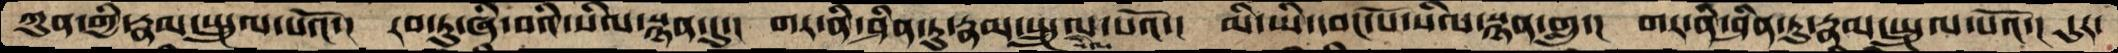ཀུནགྱི་རྣམ་སྤྲུལ་པའོ་། རབ་ཏུ་ཞི་བའི་སིལ་སྙན་དུ་། གར་ནི་ཤིན་ཏུ་རྣམ་སྤྲུལ་པའོ་། མི་ཡི་དབང་པོ་སིལ་སྙན་གླུ་། གར་ནི་ཤིན་ཏུ་རྣམ་སྤྲུལ་པའོ་། དུར་
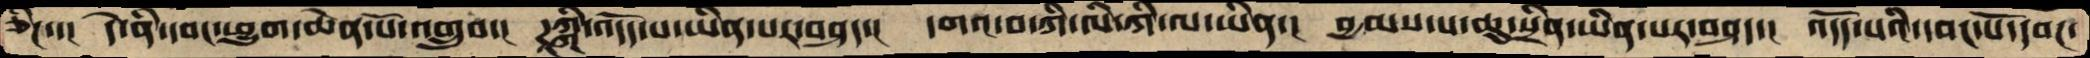ཅིང་།  དེ་ནི་དབང་ཕྱུག་ཆེན་པོ་འགྲུབ་།  ཌཱཀྐི་འདོད་པ་ཡིན་པར་བཤད་།  དགའ་བ་ཀི་ལི་ཀི་ལ་ཡིན་།  བྱམས་པ་ཆུ་སྲིན་ཡིན་པར་བཤད་།  འདོད་པའི་དབང་པོདབང་
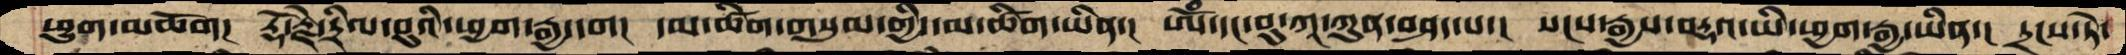ཕྱུག་མཆོག།  རྡོ་རྗེ་དྲིལ་བུའི་ཕྱག་རྒྱ་དག།  དམ་ཚིག་གསུམ་གྱི་དམ་ཚིག་ཡིན་།  ཨོཾ་དང་བུ་ཀཱ་ཀུན་བཤད་པ་།  སངས་རྒྱས་བརྡའ་ཡི་ཕྱག་རྒྱ་ཡིན་།  དྲངས་ཏེ་
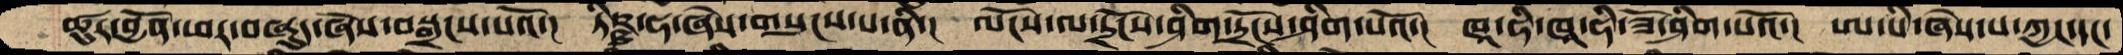ཚུར་བྱོན་ཕར་བཞུད་ཞེས་བསྒྲངས་པའོ་།  ཏིཥྛ་ཧ་ཞེས་གསུངས་པ་ནི་།  ལོངས་ལ་དྲོངས་ཤིག་དྲོངས་ཤིག་པའོ་།  ཁཱ་ཧི་ཁཱ་ཧི་ཟོ་ཤིག་པའོ་།  ཨ་པི་ཞེས་པ་ཀྱང་དང་
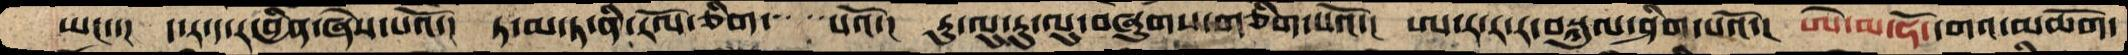ཡང་་།  ད་ར་ད་ར་བྱིན་ཞེས་པའོ་།  ཏ་མ་ཏ་ནི་རོལ་ཅིག་  པའོ་།  རུ་ལུ་རུ་ལུ་བཞུགས་གཅིག་པའོ་།  ཨ་ར་ར་ར་བསྐུལ་ཤིག་པའོ་།  ཨེ་མ་ཧོ་དགའ་མཆོག་
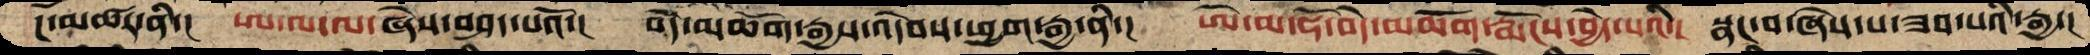ངོ་མཚར་ནི་།  ཨ་ལ་ལ་ཞེས་བཤད་པའོ་།  བདེ་མཆོག་རྒྱས་འདེབས་ཕྱག་རྒྱ་ནི་།  ཨེ་མ་ཧོ་བདེ་མཆོག་རྨོངས་བྱེད་པའི་།  སྣང་བ་ཞེས་པ་ཟབ་པའི་རྒྱ་།
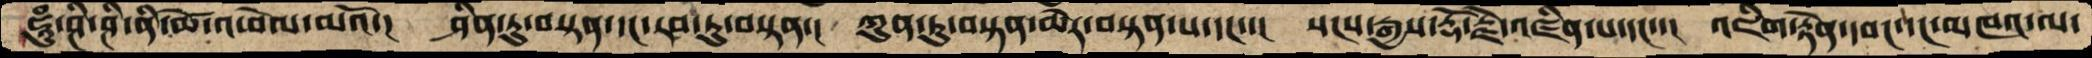ཧཱུཾ་ཤི་ཤི་ནི་ཚེ་འཕེལ་མའོ་།  ཤིན་ཏུ་བསྟན་དང་རབ་ཏུ་བསྟན་།  ཀུན་ཏུ་བསྟན་མེད་བསྟན་པ་དང་་།  སངས་རྒྱས་རྡོ་རྗེ་འཛིན་པ་དང་་།  འཇིག་རྟེན་དབང་དང་མཁའ་ལ་
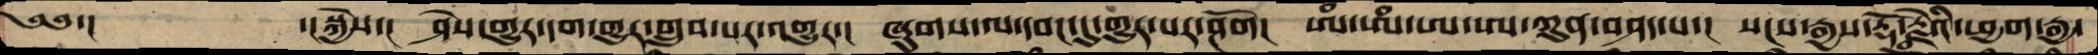༄༅་།  ་།སྐྱེས་། ཤེས་གྱུར་དག་གྱུར་གྲུབ་པར་འགྱུར་། ཞུགས་ལ་དབང་དུ་གྱུར་པར་ཤོག། ཨཾ་ཨཾ་ཨ་ཨ་ཀུན་བཤད་པ་། སངས་རྒྱས་རྡོ་རྗེའི་ཕྱག་རྒྱ་
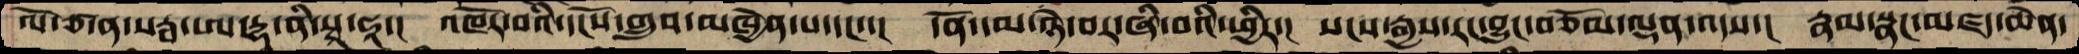ལོ་ཙ་ན་སརྦ་ཨ་དྷ་ནི་སྭཱ་ཧཱ་།  འཁོར་བའི་དངོས་གྲུབ་མཁྱེན་པ་དང་་།  དོན་ལ་ཉེ་བར་ཞི་བའི་ཕྱིར་།  སངས་རྒྱས་རང་བྱུང་བཅོམ་ལྡན་འདས་།  རྣམ་སྣང་མཛད་ཆེན་
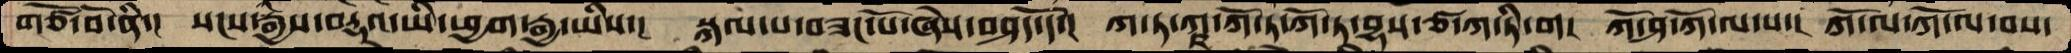གཙོ་བོ་ནི་།  སངས་རྒྱས་བརྡའ་ཡི་ཕྱག་རྒྱ་ཡིས་།  སྐལ་པ་བཟང་པོ་ཞེས་བཤད་དོ་།  ཀ་ཏ་ཀྵ་ཀོ་ཏ་ཀོ་ཏ་བྷས་ཙ་ཀ་ཏི་ག།  ཀོ་ཤ་ཀོ་ལ་ས་།  ཀོ་ལ་ཀོ་ལ་བས་
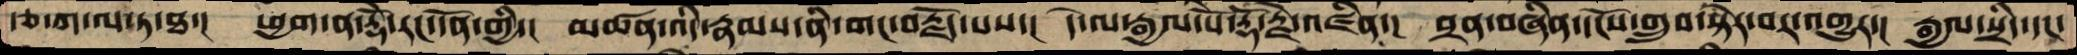རྩ་ཀ་ལ་ཏ་ཐ་།  ཕྱག་ན་རྡོེ་རང་དོན་གྱི་།  མཚན་འདི་རྣམས་ནི་གང་བརྗོད་པས་།  དེ་ལ་རྒྱལ་པོ་རྡོ་རྗེ་འཛིན་།  བྲན་བཞིན་དངོས་གྲུབ་སྟེར་བར་འགྱུར་།  རྒྱལ་སྲིད་དང་
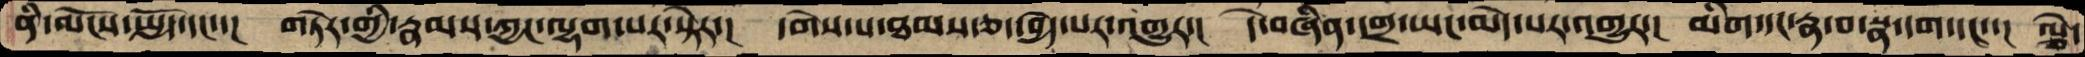ནི་ལོངས་སྤྱོད་དང་་།  གཏེར་གྱི་རྣམས་ཀྱང་ལྷག་པར་སྟེར་།  དགེས་པ་ཐམས་ཅད་དབྱེད་པར་འགྱུར་།  དེ་བཞིན་དགྲ་ཡང་མེེད་པར་འགྱུར་།  མིག་དང་རྣ་བ་སྣ་དག་དང་་།  ལྕེ་
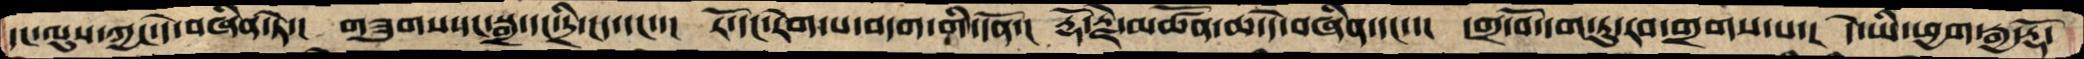དང་ལུས་ཀྱང་དེ་བཞིན་ཏེ་།  གཟུགས་དང་སྒྲ་དང་དྲི་ངད་དང་་།  རོ་དང་རེག་པ་བདག་གི་དོན་།  རྡོ་རྗེ་མཚོན་ཆ་དེ་བཞིན་དང་་།  དགྲ་བོ་དག་ཏུ་རབ་གྲགས་པ་།  དེ་ཡི་ཕྱག་རྒྱ་རྡོ་
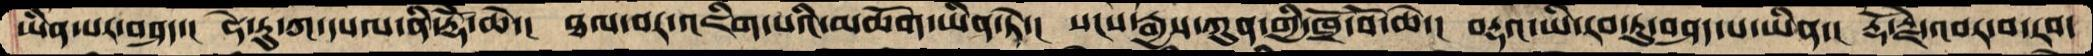ཡིན་པར་བཤད་།  ཧེ་རུ་ཀ་དཔལ་ནི་རྡོེ་ཆེ་།  ཐལ་བར་འཇིག་པའི་མཆོག་ཡིན་ཏེ་།  སངས་རྒྱས་ཀུན་གྱི་ཁྲོ་བོ་ཆེ་།  བརྡའ་ཡི་རབ་ཏུ་བཤད་པ་ཡིན་།  རྡོ་རྗེ་འབར་བ་རབ་
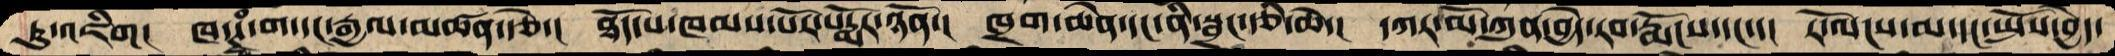ཏུ་འཇིག།  ཁ་ཊཱཾ་ག་དང་རྒྱལ་མཚན་རྩེ་།  ཐོད་པ་ཁམས་པོར་པདྨོར་ཉོན་།  ཁྲག་ཆེན་དང་ནི་སྦྲང་རྩི་ཆེ་།  དཀར་མོ་ཀུན་བྱེད་རབ་རྨོངས་དང་་།  རོ་ལངས་མ་དང་སྤོས་བྱེད་
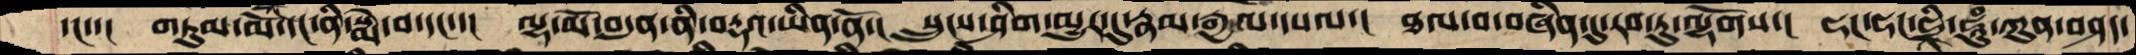དང་་།  གཏུམ་མོ་དང་ནི་སྨེ་བ་དང་་།  ལྷ་མོ་བདུན་ནི་བརྡའ་་ཡིན་ནོ་།  སྲུངས་ཤིག་མྱུར་དུ་རྣམ་རྒྱལ་དཔལ་།  ཐལ་བ་བཞིན་དུ་རབ་ཏུ་ལྷོགས་།  ཧང་ཧང་ཧྲི་ཧཱུཾ་ཀུན་བཤད་
